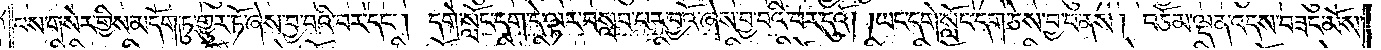པས་གསེར་གྱིས་མདོག་ཏུ་གྱུར་ཏོ་ཞེས་བྱ་བའི་བར་དང༌། དགེ་སློང་དག་དེ་ལྟར་བསླབ་པར་བྱའོ་ཞེས་བྱ་བའི་བར་དུའོ། །ཡང་དགེ་སློང་དག་ཅེས་བྱ་བ་ནས། བཅོམ་ལྡན་འདས་བཟང་མོས་
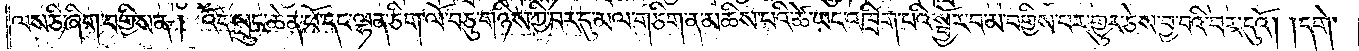ལས་ཅི་ཞིག་བགྱིས་ན། འོད་སྲུང་ཆེན་པོ་དང་ལྷན་ཅིག་ལོ་བཅུ་གཉིས་ཀྱི་བར་དུ་མལ་གཅིག་ན་མཆིས་པའི་ཚེ་ཡང་འཁྲིག་པའི་སྦྱོར་བ་མ་བགྱིས་པར་གྱུར་ཅེས་བྱ་བའི་བར་དུའོ། །དགེ་
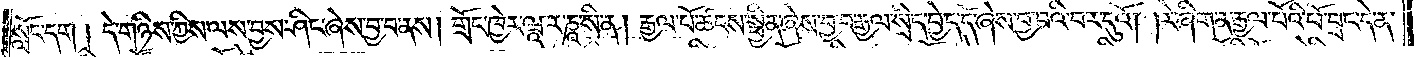སློང་དག། དེ་གཉིས་ཀྱིས་ལས་བྱས་ཤིང་ཞེས་བྱ་བ་ནས། གྲོང་ཁྱེར་ཝཱ་ར་ཎཱ་སི་ན། རྒྱལ་པོ་ཚངས་སྦྱིན་ཞེས་བྱ་བ་རྒྱལ་སྲིད་བྱེད་དོ་ཞེས་བྱ་བའི་བར་དུའོ། །རེ་ཞིག་ན་རྒྱལ་པོའི་ཕོ་བྲང་དེ་ན་
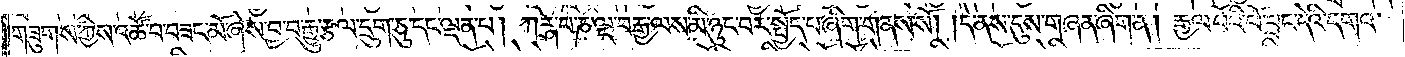གཟུགས་ཀྱིས་འཚོ་བ་བཟང་མོ་ཞེས་བྱ་བ་རྒྱུ་རྩལ་དྲུག་ཅུ་དང་ལྡན་པ། ཀཪྴ་པ་ཎ་ལྔ་བརྒྱ་ལས་མི་ཉུང་བར་སྤྱོད་པ་ཞིག་གནས་སོ། །དེ་ནས་དུས་གཞན་ཞིག་ན། རྒྱལ་པོའི་ཕོ་བྲང་དེའི་དགའ་
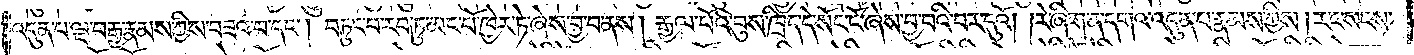འདུན་པ་ལྔ་བརྒྱ་རྣམས་ཀྱིས་བཟའ་བ་དང༌། བཏུང་བ་རབ་ཏུ་མང་པོ་ཁྱེར་ཏེ་ཞེས་བྱ་བ་ནས། རྒྱལ་པོའི་བུས་ཁྲིད་དེ་སོང་ངོ་ཞེས་བྱ་བའི་བར་དུའོ། །རེ་ཞིག་ན་དགའ་འདུན་པ་རྣམས་ཀྱིས། རང་སངས་
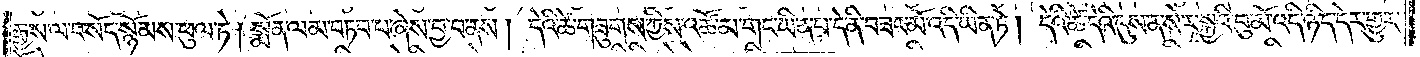རྒྱས་ལ་བསོད་སྙོམས་ཕུལ་ཏེ། སྨོན་ལམ་བཏབ་པ་ཞེས་བྱ་བ་ནས། དེའི་ཚེ་གཟུགས་ཀྱིས་འཚོ་མ་གང་ཡིན་པ་དེ་ནི་བཟང་མོ་འདི་ཡིན་ཏེ། དེའི་ཚེ་དེའི་དུས་ན་སེར་སྐྱའི་བུ་མོ་འདི་ཉིད་དེར་གྱུར་
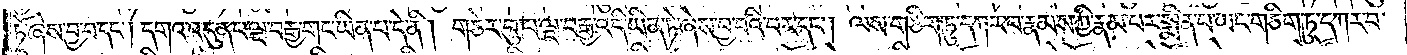ཏོ་ཞེས་བྱ་བ་དང༌། དགའ་འདུན་པ་ལྔ་བརྒྱ་གང་ཡིན་པ་དེ་ནི། གཅེར་བུ་པ་ལྔ་བརྒྱ་འདི་ཡིན་ཏེ་ཞེས་བྱ་བའི་བར་དང༌། ལས་གཅིག་ཏུ་དཀར་བ་རྣམས་ཀྱི་རྣམ་པར་སྨིན་པ་ཡང་གཅིག་ཏུ་དཀར་བ་
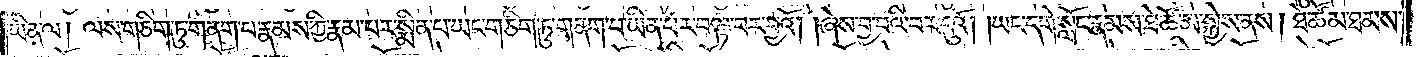ཡིན་ལ། ལས་གཅིག་ཏུ་གནག་པ་རྣམས་ཀྱི་རྣམ་པར་སྨིན་པ་ཡང་གཅིག་ཏུ་གནག་པ་ཡིན་པར་བལྟ་བར་བྱའོ། །ཞེས་བྱ་བའི་བར་དུའོ། །ཡང་དགེ་སློང་རྣམས་ཐེ་ཚོམ་སྐྱེས་ནས། ཐེ་ཚོམ་ཐམས་
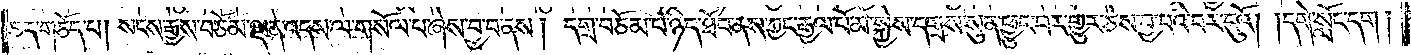ཅད་གཅོད་པ། སངས་རྒྱས་བཅོམ་ལྡན་འདས་ལ་གསོལ་པ་ཞེས་བྱ་བ་ནས། དགྲ་བཅོམ་པ་ཉིད་ཐོབ་ནས་ཀྱང་རྒྱལ་པོ་མ་སྐྱེས་དགྲས་སུན་ཕྱུང་བར་གྱུར་ཅེས་བྱ་བའི་བར་དུའོ། །དགེ་སློང་དག།
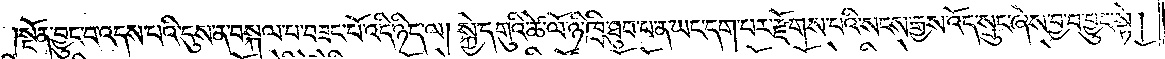སྔོན་བྱུང་བ་འདས་པའི་དུས་ན་བསྐལ་པ་བཟང་པོ་འདི་ཉིད་ལ། སྐྱེ་དགུའི་ཚེ་ལོ་ཉི་ཁྲི་ཐུབ་པ་ན་ཡང་དག་པར་རྫོགས་པའི་སངས་རྒྱས་འོད་སྲུང་ཞེས་བྱ་བ་བྱུང་སྟེ།
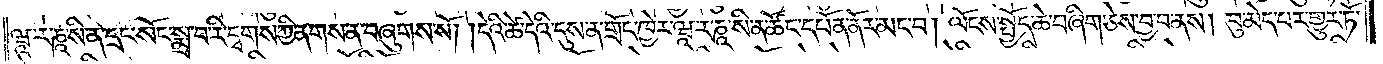ཝཱ་ར་ཎཱ་སི་ན་དྲང་སོང་སྨྲ་བ་རི་དྭགས་ཀྱི་ནགས་ན་བཞུགས་སོ། །དེའི་ཚེ་དེའི་དུས་ན་གྲོང་ཁྱེར་ཝཱ་ར་ཎཱ་སི་ན་ཚོང་དཔོན་ནོར་མང་བ། ལོངས་སྤྱོད་ཆེ་བ་ཞིག་ཅེས་བྱ་བ་ནས། བུ་མེད་པར་གྱུར་ཏོ་
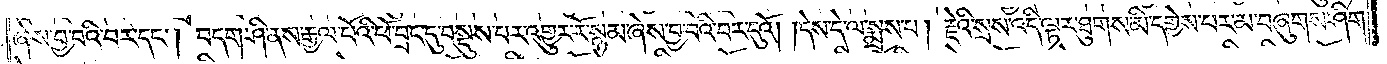ཞེས་བྱ་བའི་བར་དང༌། བདག་ཤི་ནས་རྒྱལ་པོའི་ཕོ་བྲང་དུ་བསྡུས་པར་འགྱུར་རོ་སྙམ་ཞེས་བྱ་བའི་བར་དུའོ། །དེས་དེ་ལ་སྨྲས་པ། རྗེའི་སྲས་འདི་ལྟར་ཐུགས་མི་དགྱེས་པར་མ་བཞུགས་ཤིག་
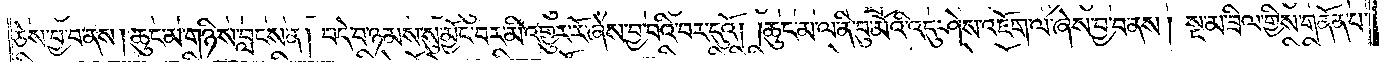ཅེས་བྱ་བ་ནས། ཆུང་མ་གཉིས་བླངས་ན། བདེ་བ་ཉམས་སུ་མྱོང་བར་མི་འགྱུར་རོ་ཞེས་བྱ་བའི་བར་དུའོ། །ཆུང་མ་ལ་ནི་བུ་མོའི་འདུ་ཤེས་འཇོག་ལ་ཞེས་བྱ་བ་ནས། སྔ་མ་ཟིལ་གྱིས་གནོན་པ་
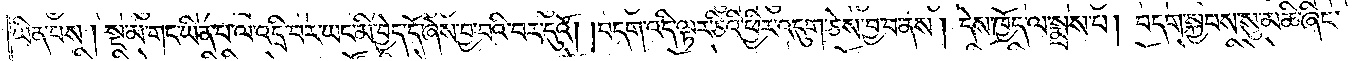ཡིན་པས། སྔ་མ་གང་ཡིན་པ་ལ་འདྲི་བར་ཡང་མི་བྱེད་དོ་ཞེས་བྱ་བའི་བར་དུའོ། །བདག་འདི་ལྟར་ཅིའི་ཕྱིར་འདུག་ཅེས་བྱ་བ་ནས། དེས་ཁྱོད་ལ་སྨྲས་པ། བདག་སྐྱབས་སུ་མཆི་ཞིང་
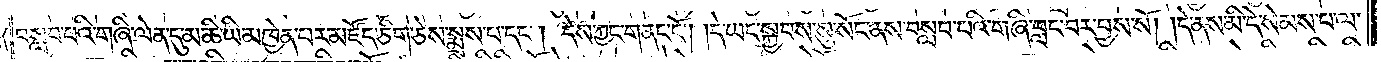བསླབ་པའི་གཞི་ལེན་དུ་མཆི་ཡི་མཁྱེན་པར་མཛོད་ཅིག་ཅེས་སྨྲས་པ་དང༌། དེས་ཀྱང་གནང་ངོ༌། །དེ་ཡང་སྐྱབས་སུ་སོང་ནས་བསླབ་པའི་གཞི་བླང་བར་བྱས་སོ། །དེ་ནས་མི་དེ་སེམས་པ་ལ་
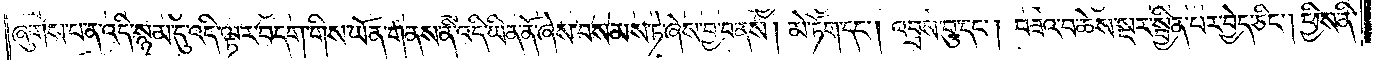ཞུགས་པ་ན་འདི་སྙམ་དུ་འདི་ལྟར་བདག་གིས་ཡོན་གནས་ནི་འདི་ཡིན་ནོ་ཞེས་བསམས་ཏེ་ཞེས་བྱ་བ་ནས། མེ་ཏོག་དང༌། འབྲས་བུ་དང༌། བཟའ་བ་ཆེས་སྔར་སྦྱིན་པར་བྱེད་ཅིང༌། །ཕྱིས་ནི་
